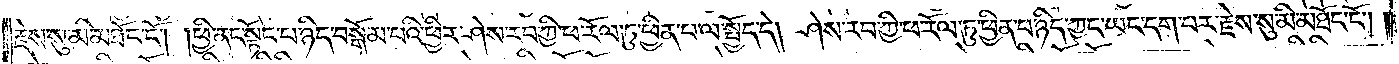རྗེས་སུ་མི་མཐོང་ངོ༌། །ཕྱི་ནང་སྟོང་པ་ཉིད་བསྒོམ་པའི་ཕྱིར་ཤེས་རབ་ཀྱི་ཕ་རོལ་ཏུ་ཕྱིན་པ་ལ་སྤྱོད་དེ། ཤེས་རབ་ཀྱི་ཕ་རོལ་ཏུ་ཕྱིན་པ་ཉིད་ཀྱང་ཡང་དག་པར་རྗེས་སུ་མི་མཐོང་ངོ༌། །
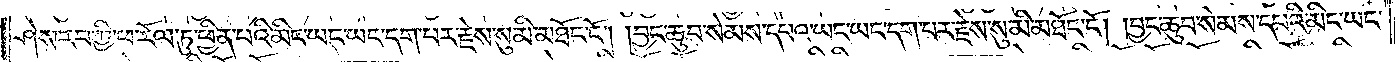ཤེས་རབ་ཀྱི་ཕ་རོལ་ཏུ་ཕྱིན་པའི་མིང་ཡང་ཡང་དག་པར་རྗེས་སུ་མི་མཐོང་ངོ༌། །བྱང་ཆུབ་སེམས་དཔའ་ཡང་ཡང་དག་པར་རྗེས་སུ་མི་མཐོང་ངོ༌། །བྱང་ཆུབ་སེམས་དཔའི་མིང་ཡང་
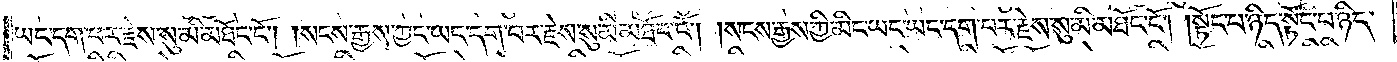ཡང་དག་པར་རྗེས་སུ་མི་མཐོང་ངོ༌། །སངས་རྒྱས་ཀྱང་ཡང་དག་པར་རྗེས་སུ་མི་མཐོང་ངོ༌། །སངས་རྒྱས་ཀྱི་མིང་ཡང་ཡང་དག་པར་རྗེས་སུ་མི་མཐོང་ངོ༌། །སྟོང་པ་ཉིད་སྟོང་པ་ཉིད་
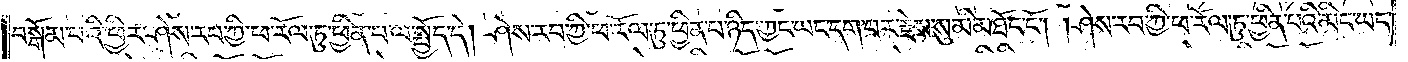བསྒོམ་པའི་ཕྱིར་ཤེས་རབ་ཀྱི་ཕ་རོལ་ཏུ་ཕྱིན་པ་ལ་སྤྱོད་དེ། ཤེས་རབ་ཀྱི་ཕ་རོལ་ཏུ་ཕྱིན་པ་ཉིད་ཀྱང་ཡང་དག་པར་རྗེས་སུ་མི་མཐོང་ངོ༌། །ཤེས་རབ་ཀྱི་ཕ་རོལ་ཏུ་ཕྱིན་པའི་མིང་ཡང་
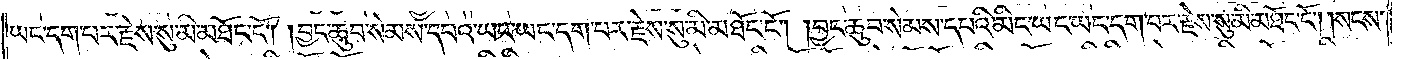ཡང་དག་པར་རྗེས་སུ་མི་མཐོང་ངོ༌། །བྱང་ཆུབ་སེམས་དཔའ་ཡང་ཡང་དག་པར་རྗེས་སུ་མི་མཐོང་ངོ༌། །བྱང་ཆུབ་སེམས་དཔའི་མིང་ཡང་ཡང་དག་པར་རྗེས་སུ་མི་མཐོང་ངོ༌། །སངས་
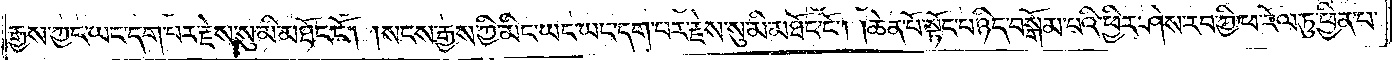རྒྱས་ཀྱང་ཡང་དག་པར་རྗེས་སུ་མི་མཐོང་ངོ༌། །སངས་རྒྱས་ཀྱི་མིང་ཡང་ཡང་དག་པར་རྗེས་སུ་མི་མཐོང་ངོ༌། །ཆེན་པོ་སྟོང་པ་ཉིད་བསྒོམ་པའི་ཕྱིར་ཤེས་རབ་ཀྱི་ཕ་རོལ་ཏུ་ཕྱིན་པ་
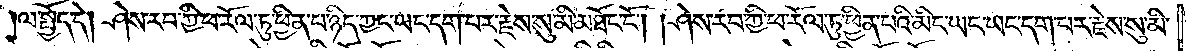ལ་སྤྱོད་དེ། ཤེས་རབ་ཀྱི་ཕ་རོལ་ཏུ་ཕྱིན་པ་ཉིད་ཀྱང་ཡང་དག་པར་རྗེས་སུ་མི་མཐོང་ངོ༌། །ཤེས་རབ་ཀྱི་ཕ་རོལ་ཏུ་ཕྱིན་པའི་མིང་ཡང་ཡང་དག་པར་རྗེས་སུ་མི་
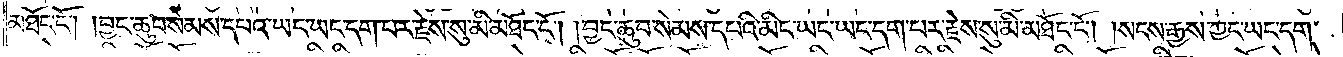མཐོང་ངོ༌། །བྱང་ཆུབ་སེམས་དཔའ་ཡང་ཡང་དག་པར་རྗེས་སུ་མི་མཐོང་ངོ༌། །བྱང་ཆུབ་སེམས་དཔའི་མིང་ཡང་ཡང་དག་པར་རྗེས་སུ་མི་མཐོང་ངོ༌། །སངས་རྒྱས་ཀྱང་ཡང་དག་
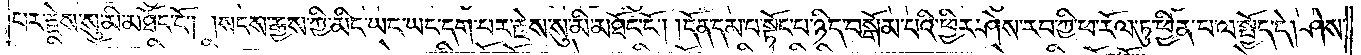པར་རྗེས་སུ་མི་མཐོང་ངོ༌། །སངས་རྒྱས་ཀྱི་མིང་ཡང་ཡང་དག་པར་རྗེས་སུ་མི་མཐོང་ངོ༌། །དོན་དམ་པ་སྟོང་པ་ཉིད་བསྒོམ་པའི་ཕྱིར་ཤེས་རབ་ཀྱི་ཕ་རོལ་ཏུ་ཕྱིན་པ་ལ་སྤྱོད་དེ། ཤེས་
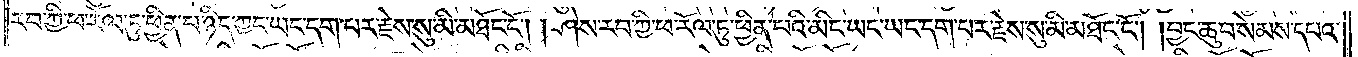རབ་ཀྱི་ཕ་རོལ་ཏུ་ཕྱིན་པ་ཉིད་ཀྱང་ཡང་དག་པར་རྗེས་སུ་མི་མཐོང་ངོ༌། །ཤེས་རབ་ཀྱི་ཕ་རོལ་ཏུ་ཕྱིན་པའི་མིང་ཡང་ཡང་དག་པར་རྗེས་སུ་མི་མཐོང་ངོ༌། །བྱང་ཆུབ་སེམས་དཔའ་
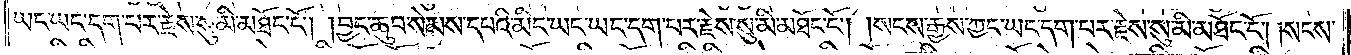ཡང་ཡང་དག་པར་རྗེས་སུ་མི་མཐོང་ངོ༌། །བྱང་ཆུབ་སེམས་དཔའི་མིང་ཡང་ཡང་དག་པར་རྗེས་སུ་མི་མཐོང་ངོ༌། །སངས་རྒྱས་ཀྱང་ཡང་དག་པར་རྗེས་སུ་མི་མཐོང་ངོ༌། །སངས་
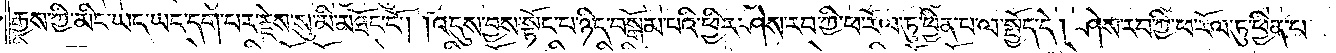རྒྱས་ཀྱི་མིང་ཡང་ཡང་དག་པར་རྗེས་སུ་མི་མཐོང་ངོ༌། །འདུས་བྱས་སྟོང་པ་ཉིད་བསྒོམ་པའི་ཕྱིར་ཤེས་རབ་ཀྱི་ཕ་རོལ་ཏུ་ཕྱིན་པ་ལ་སྤྱོད་དེ། ཤེས་རབ་ཀྱི་ཕ་རོལ་ཏུ་ཕྱིན་པ་
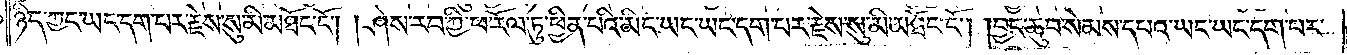ཉིད་ཀྱང་ཡང་དག་པར་རྗེས་སུ་མི་མཐོང་ངོ༌། །ཤེས་རབ་ཀྱི་ཕ་རོལ་ཏུ་ཕྱིན་པའི་མིང་ཡང་ཡང་དག་པར་རྗེས་སུ་མི་མཐོང་ངོ༌། །བྱང་ཆུབ་སེམས་དཔའ་ཡང་ཡང་དག་པར་
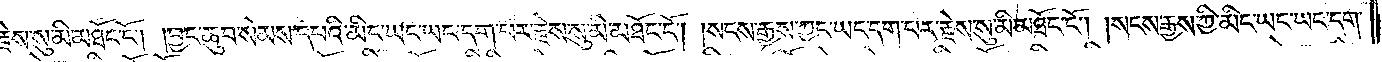རྗེས་སུ་མི་མཐོང་ངོ༌། །བྱང་ཆུབ་སེམས་དཔའི་མིང་ཡང་ཡང་དག་པར་རྗེས་སུ་མི་མཐོང་ངོ༌། །སངས་རྒྱས་ཀྱང་ཡང་དག་པར་རྗེས་སུ་མི་མཐོང་ངོ༌། །སངས་རྒྱས་ཀྱི་མིང་ཡང་ཡང་དག་
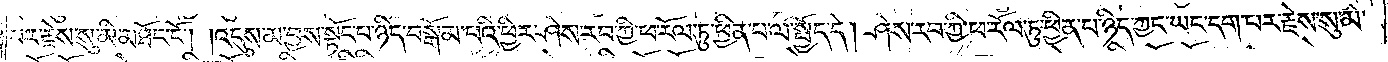པར་རྗེས་སུ་མི་མཐོང་ངོ༌། །འདུས་མ་བྱས་སྟོང་པ་ཉིད་བསྒོམ་པའི་ཕྱིར་ཤེས་རབ་ཀྱི་ཕ་རོལ་ཏུ་ཕྱིན་པ་ལ་སྤྱོད་དེ། ཤེས་རབ་ཀྱི་ཕ་རོལ་ཏུ་ཕྱིན་པ་ཉིད་ཀྱང་ཡང་དག་པར་རྗེས་སུ་མི་
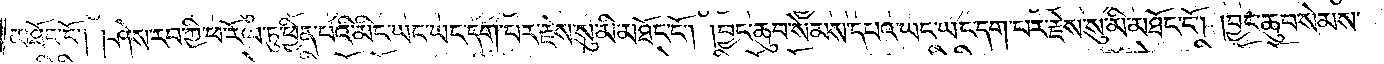མཐོང་ངོ༌། །ཤེས་རབ་ཀྱི་ཕ་རོལ་ཏུ་ཕྱིན་པའི་མིང་ཡང་ཡང་དག་པར་རྗེས་སུ་མི་མཐོང་ངོ༌། །བྱང་ཆུབ་སེམས་དཔའ་ཡང་ཡང་དག་པར་རྗེས་སུ་མི་མཐོང་ངོ༌། །བྱང་ཆུབ་སེམས་
